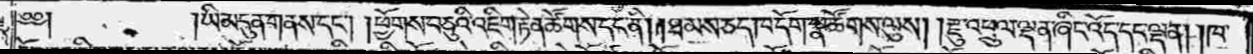༄༅༎ཡི་མདུན་གནས་དང༌། །ཕྱོགས་བཅུའི་འཇིག་རྟེན་ཚོགས་དང་ནི། །ཐམས་ཅད་ཁ་དོག་སྣ་ཚོགས་ལུས། །རྫུ་འཕྲུལ་ལྡན་ཞིང་འོད་དང་ལྡན། །ཁ་
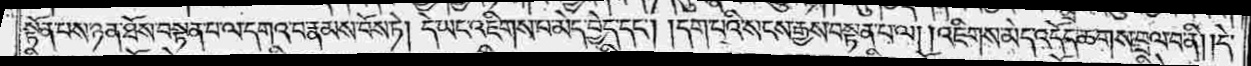སྟོན་པས་ཉན་ཐོས་བསྟན་པ་ལ་དགའ་བ་རྣམས་བོས་ཏེ། དེ་ཡང་འཇིགས་པ་མེད་བྱེད་དང༌། །དག་པའི་སངས་རྒྱས་བསྟན་པ་ལ། །འཇིགས་མེད་འདོད་ཆགས་བྲལ་བ་ནི། །དེ་
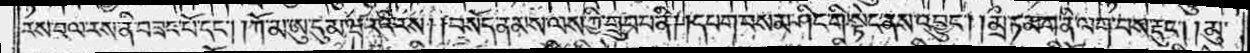རས་བལ་རས་ནི་བཟང་པོ་དང༌། །ཀོ་མ་ཨུ་དུམ་ཝ་རའི་རས། །བསོད་ནམས་ལས་ཀྱི་གྲུབ་པ་ནི། །དཔག་བསམ་ཤིང་གི་སྟེང་ནས་འབྱུང༌། །མྲྀ་ཏ་མ་ནི་ལག་པས་རྡུང༌། །མུ་
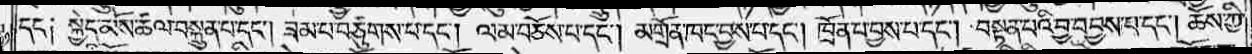དང་༑ སྐྱེད་མོས་ཚལ་བསྐྲུན་པ་དང༌། ཟམ་པ་བཙུགས་པ་དང༌། ལམ་བཅོས་པ་དང༌། མགྲོན་ཁང་བྱས་པ་དང༌། ཁྲོན་པ་བྱས་པ་དང༌། བསྟན་པའི་བྱ་བ་བྱས་པ་དང༌། ཆོས་ཀྱི་
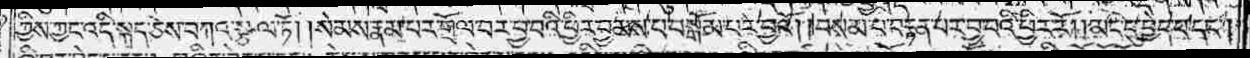ཀྱིས་ཀྱང་འདི་སྐད་ཅེས་བཀའ་སྩལ་ཏོ། །སེམས་རྣམ་པར་གྲོལ་བར་བྱ་བའི་ཕྱིར་བྱམས་པ་བསྒོམ་པར་བྱའོ། །བསམ་པ་བརྟན་པར་བྱ་བའི་ཕྱིར་རོ། །མང་དུ་བྱེད་པ་དང༌།
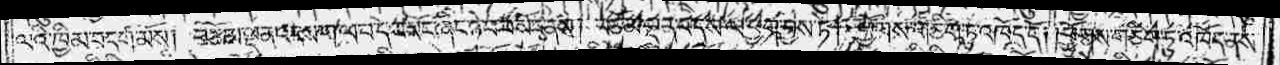ལའི་ཁྱིམ་བདག་མོས། བཅོམ་ལྡན་འདས་གལ་བ་དེ་མོང་ཞིང་ཉེ་བར་མོང་ནས། བཅོམ་ལྡན་འདས་ལ་ཕྱག་བྱས་ཏེ། ཕྱོགས་གཅིག་ཏུ་འཁོད་དོ། །ཕྱོགས་གཅིག་ཏུ་འཁོད་ནས་
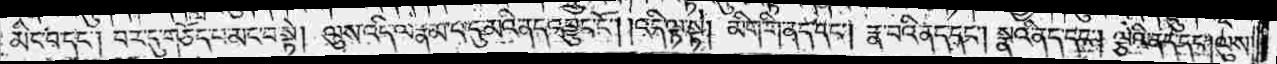མིང་བ་དང༌། བར་དུ་གཅོད་པ་མང་བ་སྟེ། ལུས་འདི་ལ་རྣམ་པ་དུ་མའི་ནད་འབྱུང་ངོ༌། །འདི་ལྟ་སྟེ། མིག་གི་ནད་དང༌། རྣ་བའི་ནད་དང༌། སྣའི་ནད་དང༌། ལྕེའི་ནད་དང༌། ལུས་
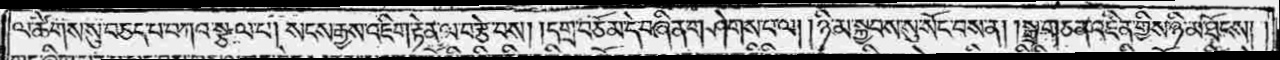ལ་ཚིགས་སུ་བཅད་པ་བཀའ་སྩལ་པ། སངས་རྒྱས་འཇིག་རྟེན་ལ་བརྩེ་བས། །དགྲ་བཅོམ་དེ་བཞིན་གཤེགས་པ་ལ། །ཉི་མ་སྐྱབས་སུ་སོང་བས་ན། །སྒྲ་གཅན་འཛིན་གྱིས་ཉི་མ་ཐོངས། །
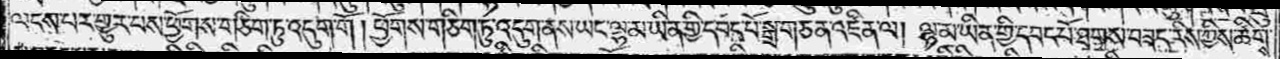ལངས་པར་གྱུར་པས་ཕྱོགས་གཅིག་ཏུ་འདུག་གོ །ཕྱོགས་གཅིག་ཏུ་འདུག་ནས་ཡང་ལྷ་མ་ཡིན་གྱི་དབང་པོ་སྒྲ་གཅན་འཛིན་ལ། ལྷ་མ་ཡིན་གྱི་དབང་པོ་ཐགས་བཟང་རིས་ཀྱིས་ཚིགས་
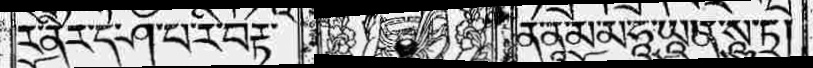ར་ནི་ར་དེ་ཤ་པ་རི་བརྟ་ན་ནཱ་མ་མ་ཧཱ་ཡཱ་ན་སཱུ་ཏྲ།ར་ནི་ར་དེ་ཤ་པ་རི་བརྟ་ན་ནཱ་མ་མ་ཧཱ་ཡཱ་ན་སཱུ་ཏྲ།
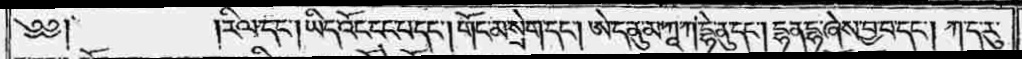༄༅༎རིལ་དང༌། ཡིད་འོང་ངང་པ་དང༌། གོང་མ་སྲེག་དང༌། ཨེ་ད་ནུ་མ་ཀཱ་ཀ་དྷེ་ནུ་དང༌། དྷན་དྷ་ཞེས་བྱ་བ་དང༌། ཀ་ད་རུ་
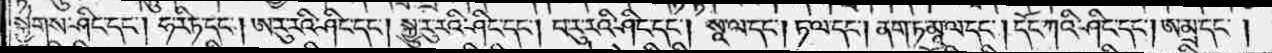སྐྱེགས་ཤིང་དང༌། ཧ་རི་ཏ་དང༌། ཨ་རུ་རའི་ཤིང་དང༌། སྐྱུ་རུ་རའི་ཤིང་དང༌། བ་རུ་རའི་ཤིང་དང༌། སཱ་ལ་དང༌། ཏ་ལ་དང༌། ནག་ཏ་མཱ་ལ་དང༌། དོང་ཀའི་ཤིང་དང༌། ཨ་མྲ་དང༌།
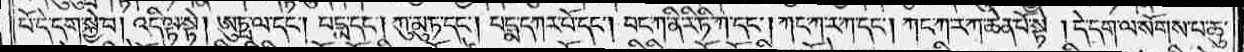པོ་དེ་དག་སྐྱེ་བ། འདི་ལྟ་སྟེ། ཨུཏྤ་ལ་དང༌། པདྨ་དང༌། ཀུ་མུ་ཏ་དང༌། པདྨ་དཀར་པོ་དང༌། བང་ཀ་ནི་རི་ཏི་ཀ་དང༌། ཀང་ཀ་ར་ཀ་དང༌། ཀང་ཀ་ར་ཀ་ཆེན་པོ་སྟེ་།དེ་དག་ལ་སོགས་པ་ཆུ་
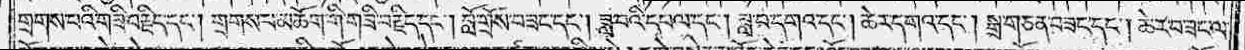གྲགས་པའི་གཟི་བརྗིད་དང༌། གྲགས་པ་མཆོག་གི་གཟི་བརྗིད་དང༌། བློ་གྲོས་བཟང་དང༌། ཟླ་བའི་དཔལ་དང༌། ཟླ་བ་དགའ་དང༌། ཆེར་དགའ་དང༌། སྒྲ་གཅན་བཟང་དང༌། ཆེར་བཟང་ལ་
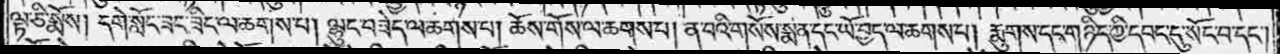ལྟ་ཅི་སྨོས། དགེ་སློང་ཟང་ཟིང་ལ་ཆགས་པ། ལྷུང་བཟེད་ལ་ཆགས་པ། ཆོས་གོས་ལ་ཆགས་པ། ན་བའི་གསོས་སྨན་དང་ཡོ་བྱད་ལ་ཆགས་པ། རྨུགས་དང་གཉིད་ཀྱི་དབང་དུ་སོང་བ་དང༌།
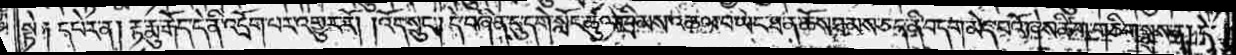སྟེ༑ དཔེར་ན། རྟ་རྨུ་རྒོད་དེ་ནི་འདྲོག་པར་འགྱུར་རོ། །འོད་སྲུང༌། དེ་བཞིན་དུ་དགེ་སློང་ཚུལ་ཁྲིམས་འཆལ་བ་ཡང་ཐ་ན་ཆོས་ཐམས་ཅད་ནི་བདག་མེད་པའོ་ཞེས་ཚིག་གཅིག་སྨྲས་ན། དེ་
